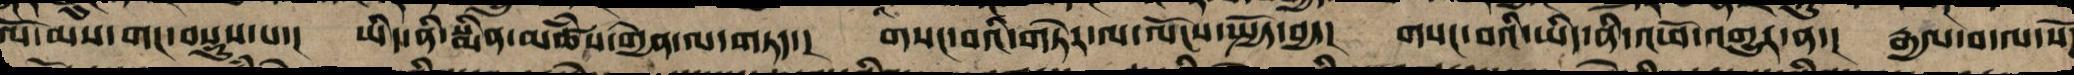ལོ་མས་གང་བསྡུས་པ་། ཡིད་ནི་སྨིན་མཚཾས་གྱེན་ལ་གཏད་། གསང་བའི་གཏེར་ལ་ལོངས་སྤྱོད་བྱ་། གསང་བའི་ཡིད་ནི་འཕོ་འགྱུར་ན་། རྒྱལ་བ་ལ་སོཌ
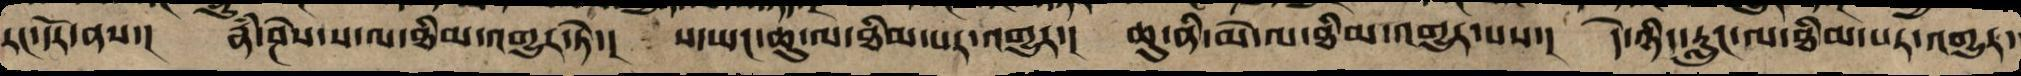རང་དོར་ནས་། རྣཾ་ཤེས་ས་ལ་ཐིམ་འགྱུར་ཏེ་། ས་ཡང་ཆུ་ལ་ཐིམ་པར་འགྱུར་། ཆུ་ནི་མེ་ལ་ཐིམ་གྱུར་པས་། དེ་ཉིད་རླུང་ལ་ཐིམ་པར་འགྱུར་
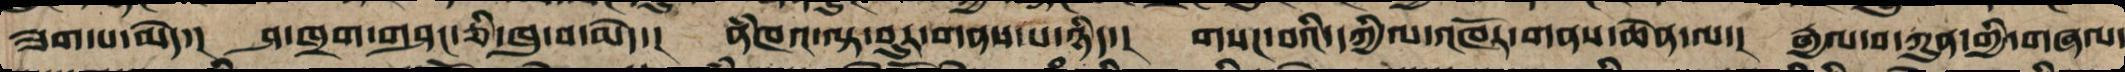ཟག་པ་མེད་། ཤ་ཁྲག་གཤང་ཅི་ཁུ་བ་མེད་། ནཾཁའ་ལྟ་བུར་གནས་པ་ཉིད་། གསང་བའི་དཀྱིལ་འཁོར་གནས་ཆེན་ལ་། རྒྱལ་བ་ཀུན་གྱི་གཞལ་
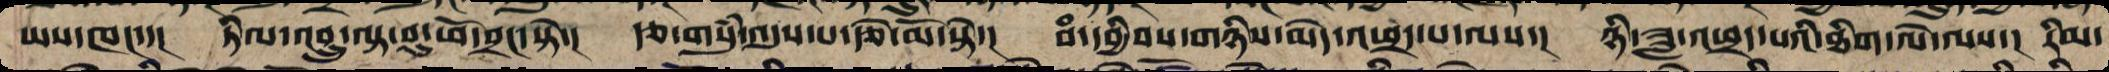ཡས་ཁང་་། ཏིལ་འབྲུ་ལྟ་བུ་ཕོ་བྲང་སྟེ་། རྩ་གསུཾ་འདུས་པའི་རྩེ་མོ་སྟེ་། བཾ་དབྱིབས་གཉིས་མེད་ཕྲད་པ་ལས་། ཉི་ཟླ་ཕྲད་པའི་ཐིག་ལེ་ལས་། རིམ་
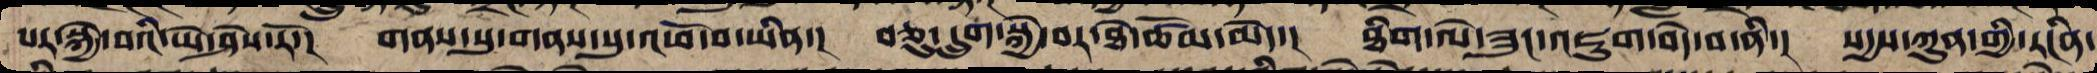པར་སྐྱེ་བའི་ཡེ་ཤེས་རོ་། གནས་ནས་གནས་སུ་འཕོ་བ་ཡིན་། བཅུ་དྲུག་སྐྱེ་བར་ཐེ་ཚོམ་མེད་། ཐིག་ལེ་ཟུང་འཇུག་བདེ་བ་ནི་། སདྱས་ཀུན་གྱི་རངིན་
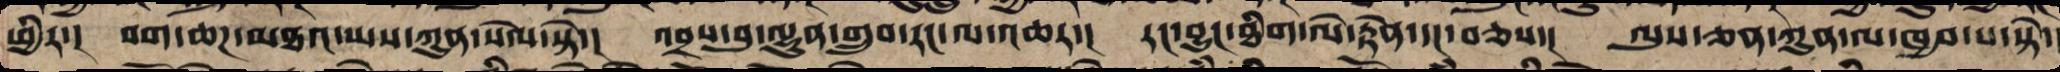ཕྱིར་། བག་ཆཌ་མཐའ་ཡས་ཀུན་སེལ་སྟེ་། འབྲས་བུ་ལྷུན་གྲུབ་རང་ལ་འཆར་། རང་བྱུང་ཐིག་ལེ་རྟེན་དང་བཅས་། ལུས་ཅན་ཀུན་ལ་ཁྱབ་པ་སྟེ་
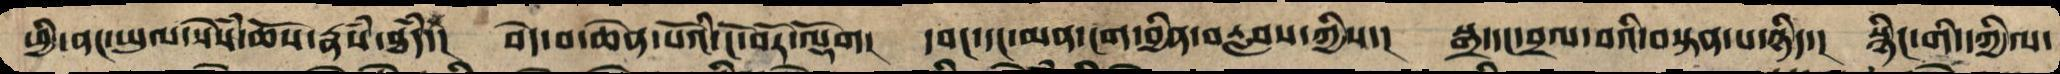ཕྱི་ནང་ཡུལ་སེཾས་ཆོས་རྣཾས་ཐཾད། བདེ་བ་ཆེན་པོའི་ངོ་བོར་ལྡོག། དབང་དང་མན་ངག་བྱིན་རླབས་ཀྱིས་། སྒྲ་དང་བྲལ་བའི་བསྟན་པ་ཉིད་། སྙིང་གི་དཀྱིལ་
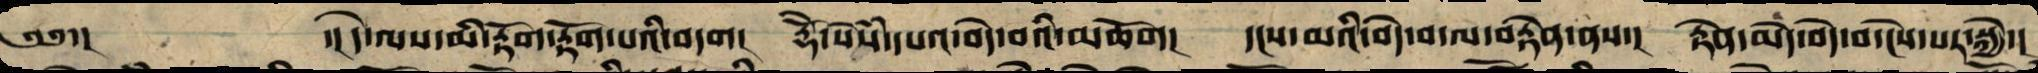༄༅་།  ་།དེ་ལ་མི་རྟོག་རྟོག་པའི་བདག། རྡོེ་སེཾས་དཔའ་བདེ་བའི་མཆོག། དྭངས་མའི་བདེ་བ་ལ་བརྟེན་ནས་། རྟེན་མེད་བདེ་བ་ངེས་པར་སྐྱེ་།
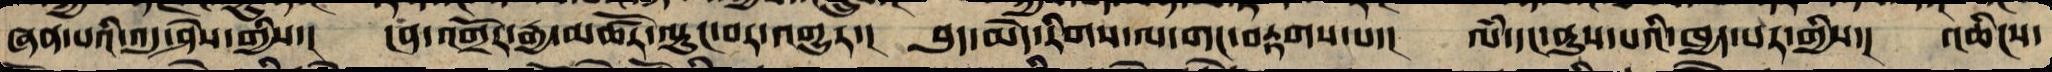ཞན་པའི་འདུ་ཤེས་ཀྱིས་། ངན་འགྲོར་རྒྱ་མཚོར་ལྟུང་བར་འགྱུར་། བུད་མེད་རིགས་ལ་གང་བརྟགས་པ་། ལཾ་དང་ནུས་པའི་ཁྱད་པར་གྱིས་། འཆིངས་
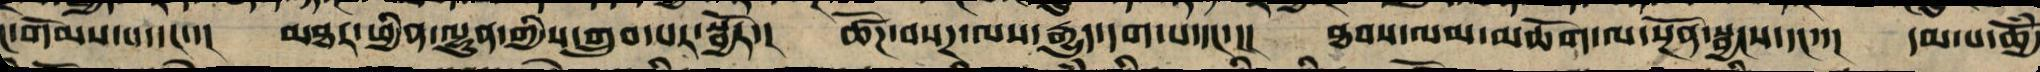ང་གོམས་པ་དང་་། མཐར་ཕྱིན་ལྷུན་གྱིས་གྲུབ་པར་སྦྱོར་། ཚོཌ་བསཌ་ལས་རྒྱུད་དག་པ་དང་་། ཐབས་ལམ་མཆོག་ལ་སྔོན་སྦྱངས་དང་་། དམ་པ་ཆྱོཾ་
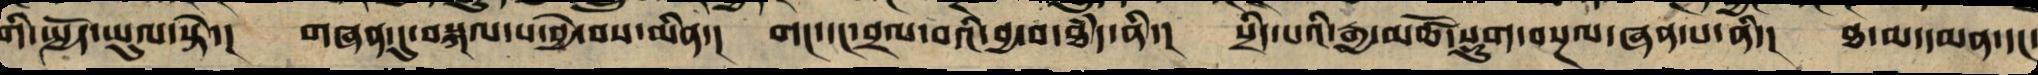གི་སྤྱོད་ཡུལ་སྟེ་། གཞན་དུ་བསྐལ་པ་བྱེ་བས་མིན་། གང་དང་བྲལ་བའི་བྱ་བ་ཐམས་ཅད་ནི་། སྲིད་པའི་རྒྱ་མཚོ་སྡུག་བསྔལ་ཞན་པ་ནི་། ཐ་མ་དམན་དང་
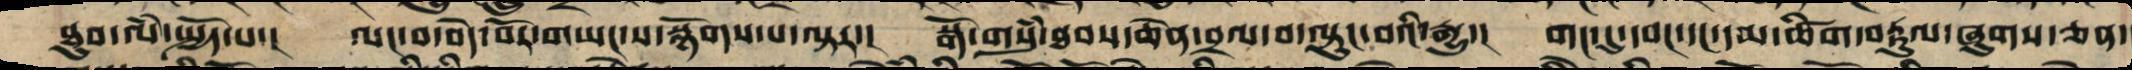ཐུབ་ལཾ་སྤྱོད་པ་། ལང་བ་བདེ་བོར་གཡང་ས་སྙོགས་པ་ལྟར་། སྒོ་གསུཾ་ཐབས་ཆེན་བྲལ་བ་ལྟུང་བའི་རྒྱུ་། གང་དུ་དབང་དང་དམ་ཚིག་བརྟུལ་ཞུགས་ཅན་
